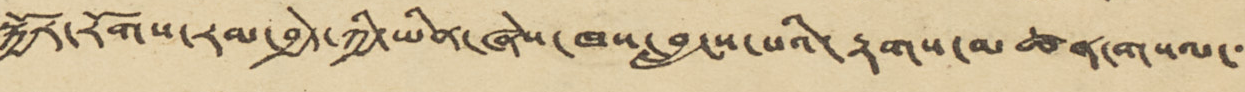སྐྱོར་རོགས་རམ་བྱེད་ཀྱི་ཡིན་ཞེས་ཁས་བླངས་པའི་རྟགས་མཚན་གསལ་་
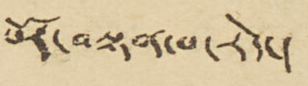པོར་བསྟན་པ་རེད་།
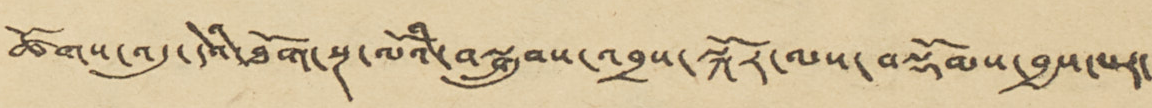ཚོགས་འདུ་དེའི་ཐོག་སྔ་ལོའི་བསྒྲུབས་འབྲས་སྐོར་ལས་བསྡོམས་བྱས་པར་
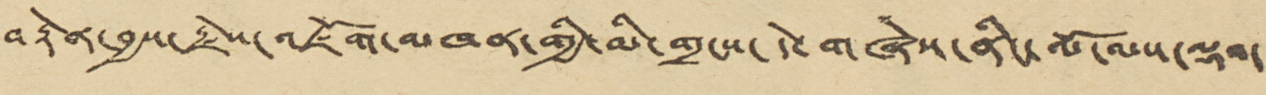བརྟེན་བྱས་རྗེས་འཇོག་མཁན་གྱི་མི་གྲངས་དེ་གཞེས་ནིང་ལོ་ལས་ལྡབ་
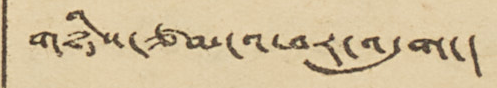གཉིས་ཙམ་འཕར་འདུག་།
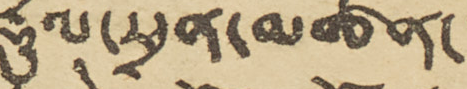རྡུལ་ཕྲན་མཚོན་་་
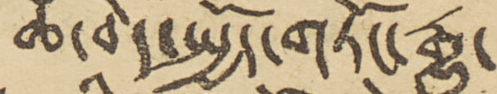ཆ་བེད་སྤྱོད་གཏོང་རྒྱུ་
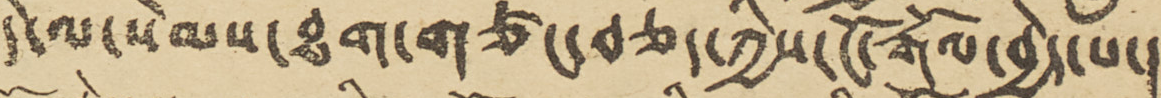དེ་ལ་སེམས་ཐག་གཙང་བཅད་ཀྱིས་ངོ་རྒོལ་བྱེད་པ་།
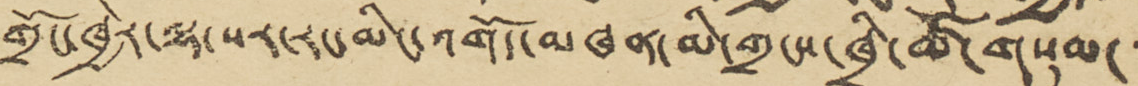གྲོང་ཁྱེར་ལྷ་སར་རང་མིང་འགོ་མཁན་མི་གྲངས་ཁྲི་ཚོ་གསུམ་་་་
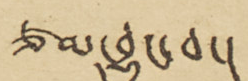ཙམ་བྱུང་བ་།
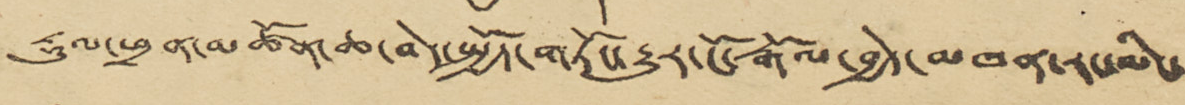རྡུལ་ཕྲན་མཚོན་ཆ་བེད་སྤྱོད་གཏོང་རྒྱུར་ངོ་རྒོལ་བྱེད་མཁན་རང་མིང་
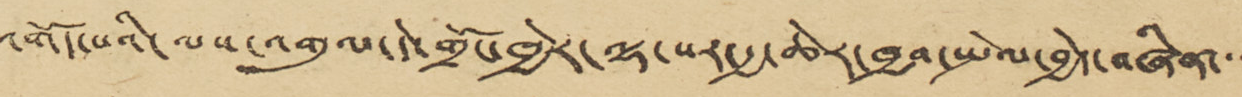འགོད་པའི་ལས་འགུལ་དེ་གྲོང་ཁྱེར་ལྷ་སར་རྒྱ་ཆེར་ཁྱབ་སྤེལ་བྱེད་བཞིན་་་
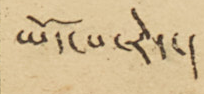ཡོད་པ་རེད་།
